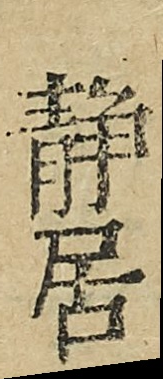靜居
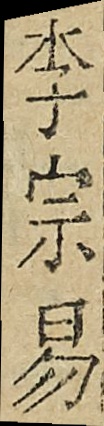李宗易
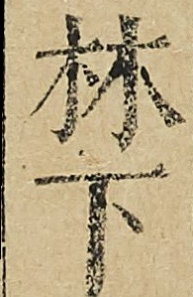林下
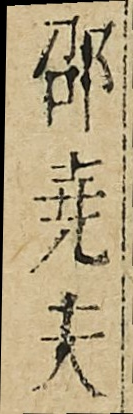邵堯夫
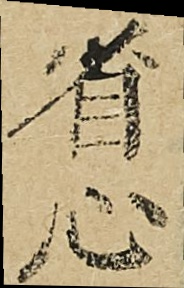省心
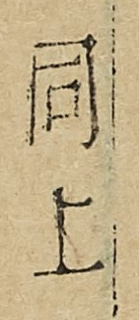同上
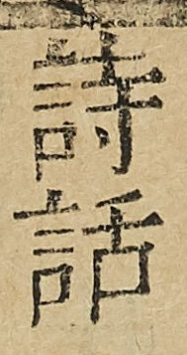詩話
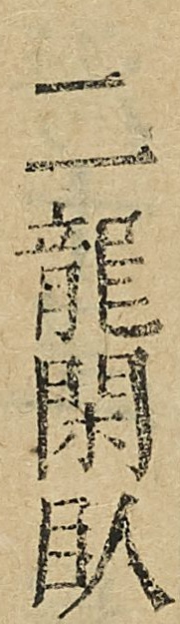二龍閑卧
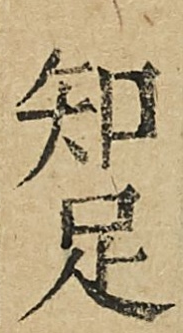知足
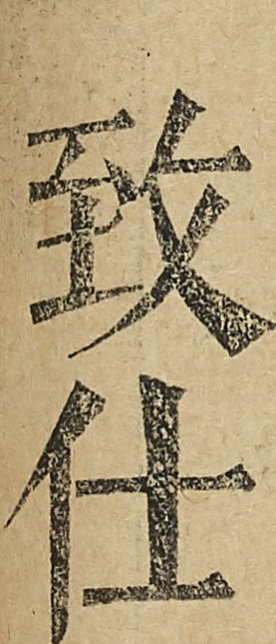致仕
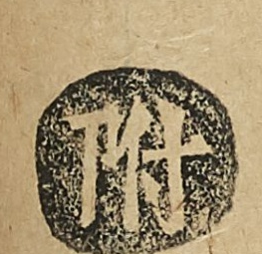附
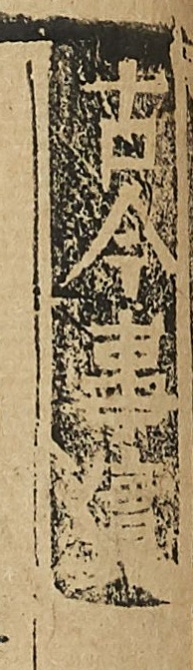古今事實
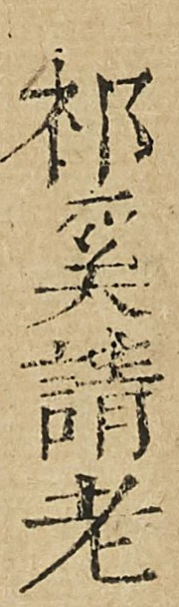祁奚請老
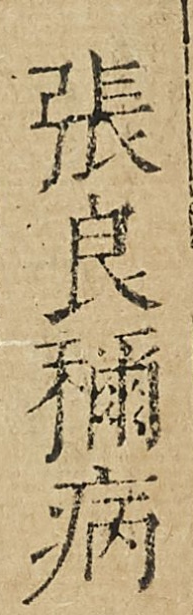張良稱病
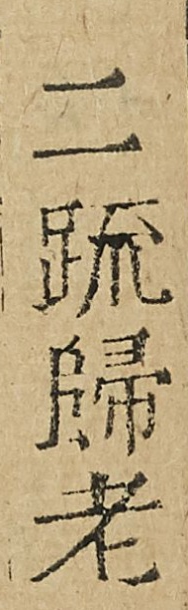二䟽歸老
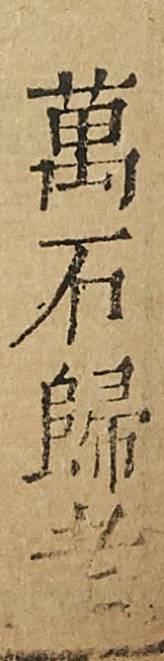萬石歸老
